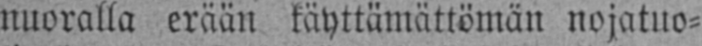nuoralla erään käyttämättömän nojatuo-
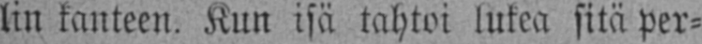lin kanteen. Kun isä tahtoi lukea sitä per-
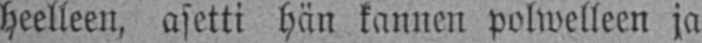heelleen, asetti hän kannen polwelleen ja
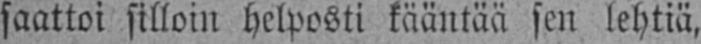saattoi silloin helposti kääntää sen lehtiä,
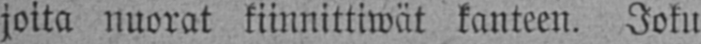joita nuorat kiinnittiwät kanteen. Joku
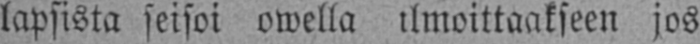lapsista seisoi owella ilmoittaakseen jos
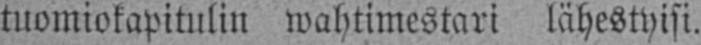tuomiokapitulin wahtimestari lähestyisi.
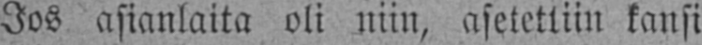Jos asianlaita oli niin, asetettiin kansi
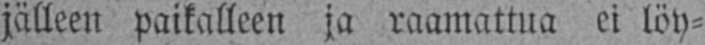jälleen paikalleen ja raamattua ei löy-
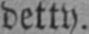detty.
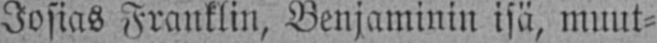Josias Franklin, Benjaminin isä, muut-
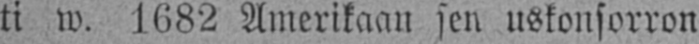ti w. 1082 Amerikaan sen uskonsorron
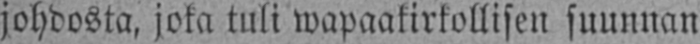johdosta, joka tuli wapaakirkollisen suunnan
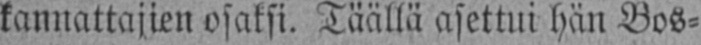kannattajien osaksi. Täällä asettui hän Bos-
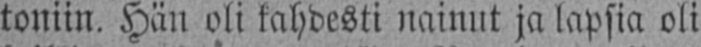toniin. Hän oli kahdesti nainut ja lapsia oli
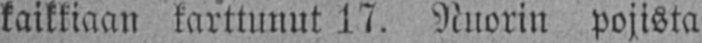kaikkiaan karttunut 17. Nuorin pojista
